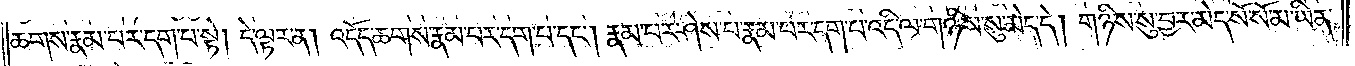ཆགས་རྣམ་པར་དག་པ་སྟེ། དེ་ལྟར་ན། འདོད་ཆགས་རྣམ་པར་དག་པ་དང༌། རྣམ་པར་ཤེས་པ་རྣམ་པར་དག་པ་འདི་ལ་གཉིས་སུ་མེད་དེ། གཉིས་སུ་བྱར་མེད་སོ་སོ་མ་ཡིན་
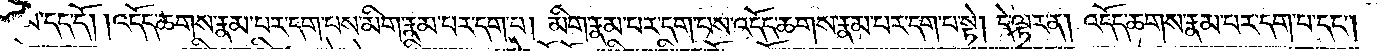ཐ་མི་དད་དོ། །འདོད་ཆགས་རྣམ་པར་དག་པས་མིག་རྣམ་པར་དག་པ། མིག་རྣམ་པར་དག་པས་འདོད་ཆགས་རྣམ་པར་དག་པ་སྟེ། དེ་ལྟར་ན། འདོད་ཆགས་རྣམ་པར་དག་པ་དང༌།
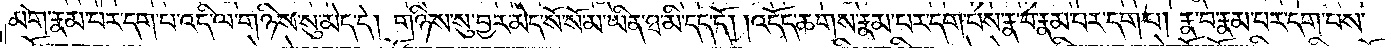མིག་རྣམ་པར་དག་པ་འདི་ལ་གཉིས་སུ་མེད་དེ། གཉིས་སུ་བྱར་མེད་སོ་སོ་མ་ཡིན་ཐ་མི་དད་དོ། །འདོད་ཆགས་རྣམ་པར་དག་པས་རྣ་བ་རྣམ་པར་དག་པ། རྣ་བ་རྣམ་པར་དག་པས་
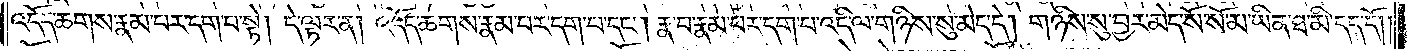འདོད་ཆགས་རྣམ་པར་དག་པ་སྟེ། དེ་ལྟར་ན། འདོད་ཆགས་རྣམ་པར་དག་པ་དང༌། རྣ་བ་རྣམ་པར་དག་པ་འདི་ལ་གཉིས་སུ་མེད་དེ། གཉིས་སུ་བྱར་མེད་སོ་སོ་མ་ཡིན་ཐ་མི་དད་དོ། །
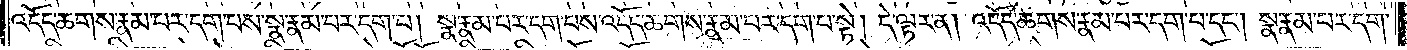འདོད་ཆགས་རྣམ་པར་དག་པས་སྣ་རྣམ་པར་དག་པ། སྣ་རྣམ་པར་དག་པས་འདོད་ཆགས་རྣམ་པར་དག་པ་སྟེ། དེ་ལྟར་ན། འདོད་ཆགས་རྣམ་པར་དག་པ་དང༌། སྣ་རྣམ་པར་དག་
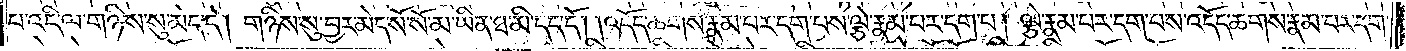པ་འདི་ལ་གཉིས་སུ་མེད་དེ། གཉིས་སུ་བྱར་མེད་སོ་སོ་མ་ཡིན་ཐ་མི་དད་དོ། །འདོད་ཆགས་རྣམ་པར་དག་པས་ལྕེ་རྣམ་པར་དག་པ། ལྕེ་རྣམ་པར་དག་པས་འདོད་ཆགས་རྣམ་པར་དག་
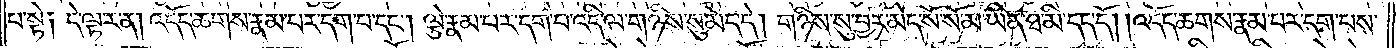པ་སྟེ༑ དེ་ལྟར་ན། འདོད་ཆགས་རྣམ་པར་དག་པ་དང༌། ལྕེ་རྣམ་པར་དག་པ་འདི་ལ་གཉིས་སུ་མེད་དེ། གཉིས་སུ་བྱར་མེད་སོ་སོ་མ་ཡིན་ཐ་མི་དད་དོ། །འདོད་ཆགས་རྣམ་པར་དག་པས་
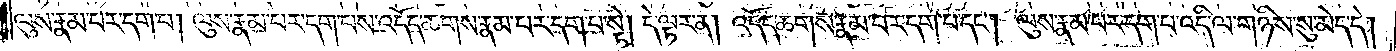ལུས་རྣམ་པར་དག་པ། ལུས་རྣམ་པར་དག་པས་འདོད་ཆགས་རྣམ་པར་དག་པ་སྟེ། དེ་ལྟར་ན། འདོད་ཆགས་རྣམ་པར་དག་པ་དང༌། ལུས་རྣམ་པར་དག་པ་འདི་ལ་གཉིས་སུ་མེད་དེ།
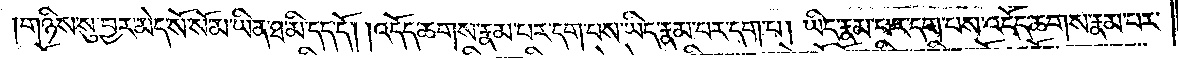གཉིས་སུ་བྱར་མེད་སོ་སོ་མ་ཡིན་ཐ་མི་དད་དོ། །འདོད་ཆགས་རྣམ་པར་དག་པས་ཡིད་རྣམ་པར་དག་པ། ཡིད་རྣམ་པར་དག་པས་འདོད་ཆགས་རྣམ་པར་
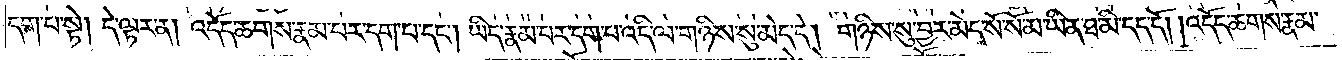དག་པ་སྟེ། དེ་ལྟར་ན། འདོད་ཆགས་རྣམ་པར་དག་པ་དང༌། ཡིད་རྣམ་པར་དག་པ་འདི་ལ་གཉིས་སུ་མེད་དེ། གཉིས་སུ་བྱར་མེད་སོ་སོ་མ་ཡིན་ཐ་མི་དད་དོ། །འདོད་ཆགས་རྣམ་
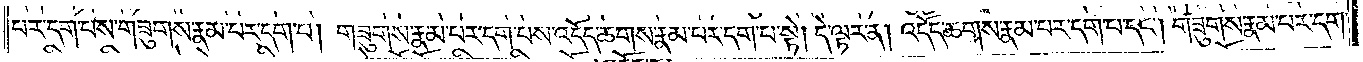པར་དག་པས་གཟུགས་རྣམ་པར་དག་པ། གཟུགས་རྣམ་པར་དག་པས་འདོད་ཆགས་རྣམ་པར་དག་པ་སྟེ། དེ་ལྟར་ན། འདོད་ཆགས་རྣམ་པར་དག་པ་དང༌། གཟུགས་རྣམ་པར་དག་
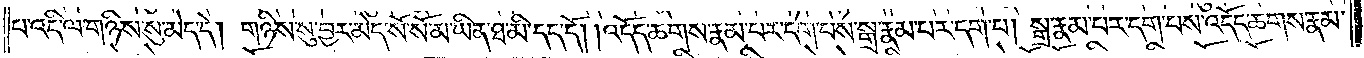པ་འདི་ལ་གཉིས་སུ་མེད་དེ་གཉིས་སུ་བྱར་མེད་སོ་སོ་མ་ཡིན་ཐ་མི་དད་དོ། །འདོད་ཆགས་རྣམ་པར་དག་པས་སྒྲ་རྣམ་པར་དག་པ། སྒྲ་རྣམ་པར་དག་པས་འདོད་ཆགས་རྣམ་
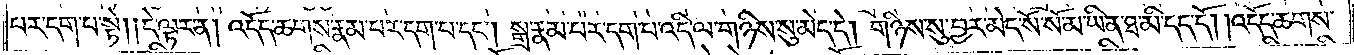པར་དག་པ་སྟེ། །དེ་ལྟར་ན། འདོད་ཆགས་རྣམ་པར་དག་པ་དང༌། སྒྲ་རྣམ་པར་དག་པ་འདི་ལ་གཉིས་སུ་མེད་དེ། གཉིས་སུ་བྱར་མེད་སོ་སོ་མ་ཡིན་ཐ་མི་དད་དོ། །འདོད་ཆགས་
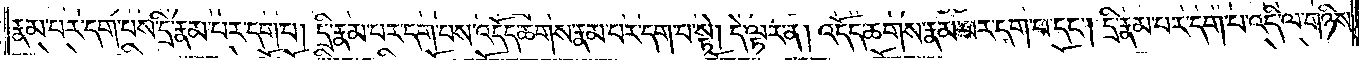རྣམ་པར་དག་པས་དྲི་རྣམ་པར་དག་པ། དྲི་རྣམ་པར་དག་པས་འདོད་ཆགས་རྣམ་པར་དག་པ་སྟེ། དེ་ལྟར་ན། འདོད་ཆགས་རྣམ་པར་དག་པ་དང༌། དྲི་རྣམ་པར་དག་པ་འདི་ལ་གཉིས་
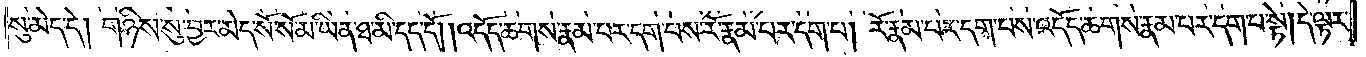སུ་མེད་དེ། གཉིས་སུ་བྱར་མེད་སོ་སོ་མ་ཡིན་ཐ་མི་དད་དོ། །འདོད་ཆགས་རྣམ་པར་དག་པས་རོ་རྣམ་པར་དག་པ། རོ་རྣམ་པར་དག་པས་འདོད་ཆགས་རྣམ་པར་དག་པ་སྟེ། དེ་ལྟར་
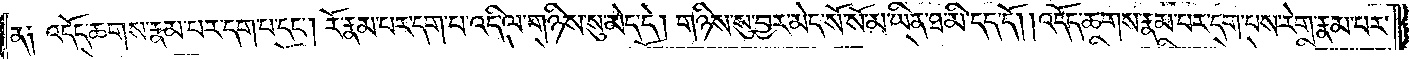ན༑ འདོད་ཆགས་རྣམ་པར་དག་པ་དང༌། རོ་རྣམ་པར་དག་པ་འདི་ལ་གཉིས་སུ་མེད་དེ། གཉིས་སུ་བྱར་མེད་སོ་སོ་མ་ཡིན་ཐ་མི་དད་དོ། །འདོད་ཆགས་རྣམ་པར་དག་པས་རེག་རྣམ་པར་
